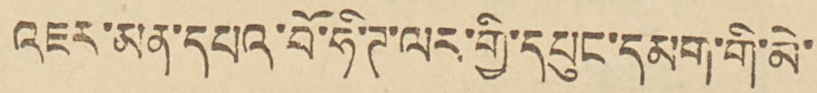འཇར་མན་དཔའ་བོ་ཧི་ཊ་ལར་གྱི་དཔུང་དམག་གི་མི་
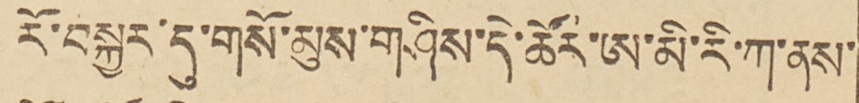རོ་བསྐྱར་དུ་གསོ་མུས་གཤིས་དེ་ཚོར་ཨ་མི་རི་ཀ་ནས་
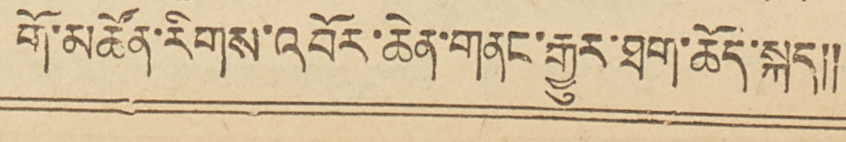གོ་མཚོན་རིགས་འབོར་ཆེན་གནང་རྒྱུར་ཐག་ཆོད་སྐད།།
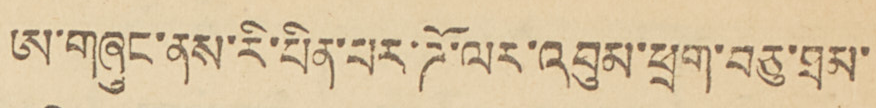ཨ་གཞུང་ནས་རི་པིན་པར་ཌོ་ལར་འབུམ་ཕྲག་བཅུ་ཐམ་
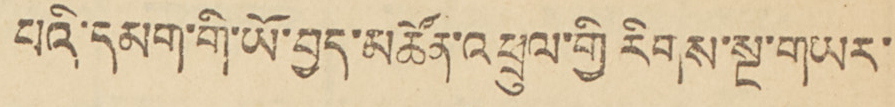པའི་དམག་གི་ཡོ་བྱད་མཚོན་འཕྲུལ་གྱི རིགས་སྔ་གཡར་
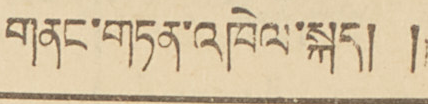གནང་གཏན་འཁེལ་སྐད། །
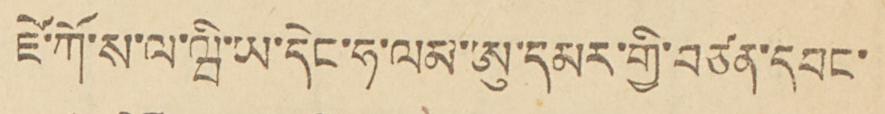རྫེ་ཀོ་ས་ལ་ཝི་ཡ་དེང་ཧ་ལམ་ཨུ་དམར་གྱི་བཙན་དབང་
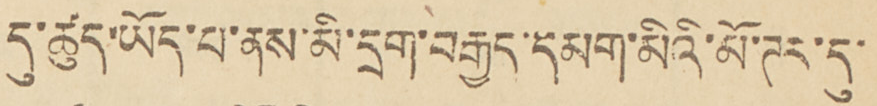དུ་ཚུད་ཡོད་པ་ནས་མི་དྲག་བརྒྱད་དམག་མིའི་མོ་ཊར་དུ་
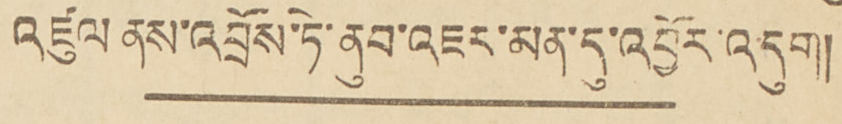འཛུལ ནས་འབྲོས་ཏེ་ནུབ་འཇར་མན་དུ་འབྱོར་འདུག།།
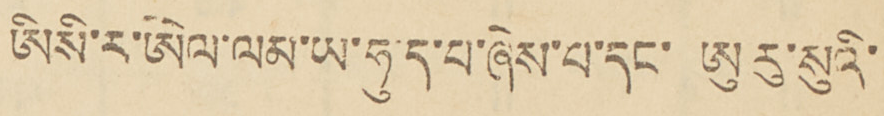ཨིསི་ར་ཨེལ་ལམ་ཡ་ཧུ་ད་པ་ཞེས་པ་དང་ ཨུ་རུ་སུའི་
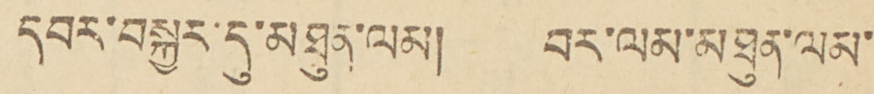དབར་བསྐྱར་དུ་མཐུན་ལམ། བར་ལམ་མཐུན་ལམ་
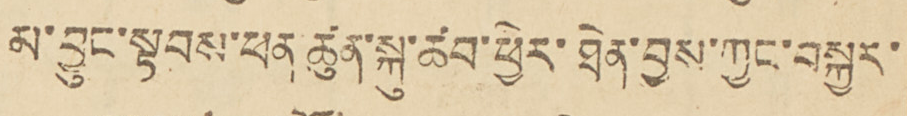མ་བྱུང་སྟབས་ཕན ཚུལ་སྐུ་ཚབ་ཕྱིར་ཐེན་བྱས་ཀྱང་བསྐྱར་
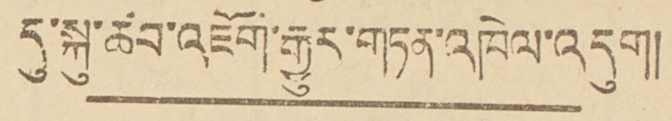དུ་སྐུ་ཚབ་འཇོག་རྒྱུར་གཏན་འཁེལ་འདུག།།
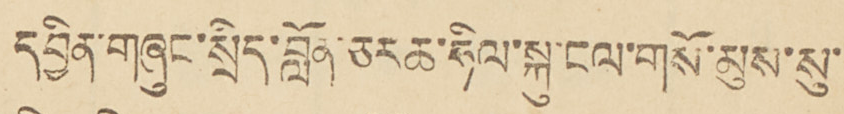དབྱིན་གཞུང་སྲིད་བློན་ཅར་ཆ་ཧིལ་སྐུ་ངལ་གསོ་མུས་སུ་
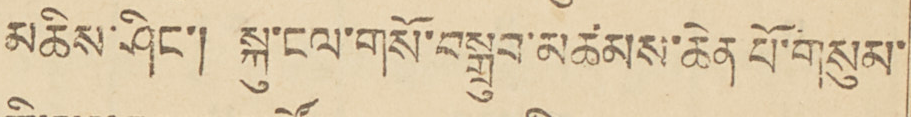མཆིས་ཤིང་། སྐུ་ངལ་གསོ་བསྒྲུབ་མཚམས་ཆེན་པོ་གསུམ་
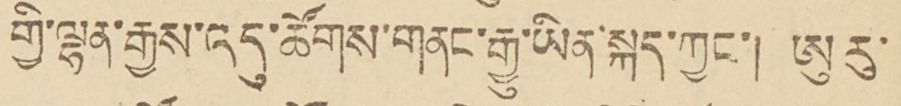གྱི་ལྷན་རྒྱས་འདུ་ཚོགས་གནང་རྒྱུ་ཡིན་སྐད་ཀྱང་། ཨུརུ་
